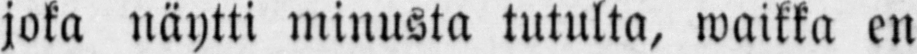joka näytti minusta tutulta, waikka en
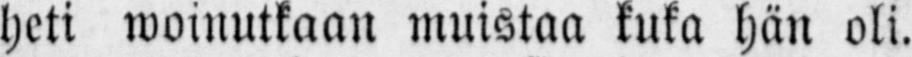heti woinutkaan muistaa kuka hän oli.
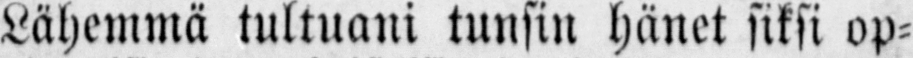Lähemmä tultuani tunsin hänet siksi op-
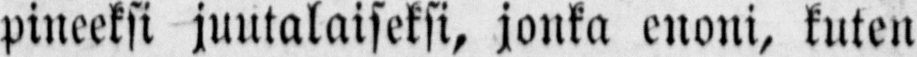pineeksi juutalaiseksi, jonka enoni, kuten
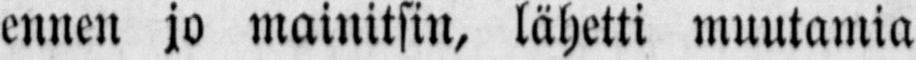ennen jo mainitsin, lähetti muutamia
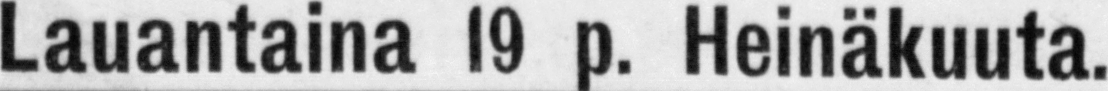Lauantaina 19 p. Heinäkuuta.
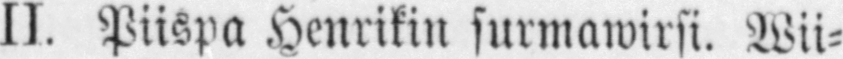II. Piispa Henrikin surmawirsi. Wii-
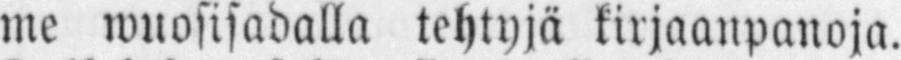me wuosisadalla tehtyjä kirjaanpanoja.
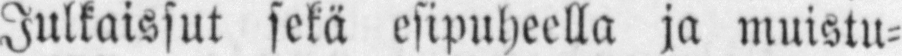Julkaissut sekä esipuheella ja muistu-
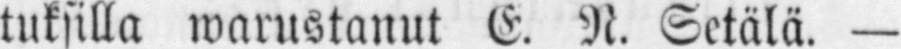tuksilla warustauut E. N. Setälä. —
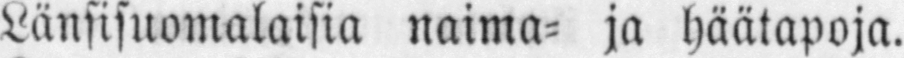Länsisuomalaisia naima- ja häätapoja.
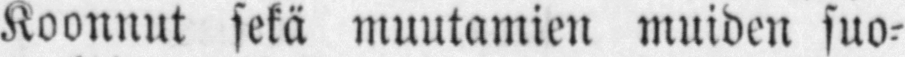Koonnut sekä muutamien muiden suo-
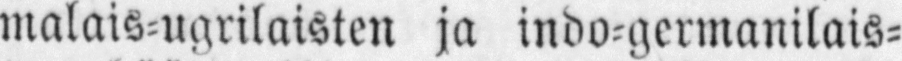malais-ugrilaisten ja indo-germanilais-
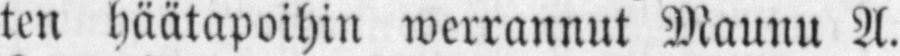ten häätapoihin werrannut Maunu A.
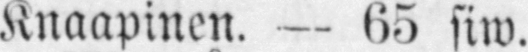Knaapinen. — 65 siw.
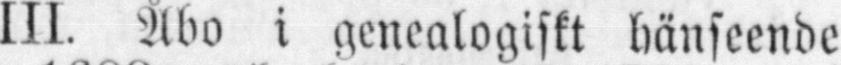III. Åbo i genealogiskt hänseende
